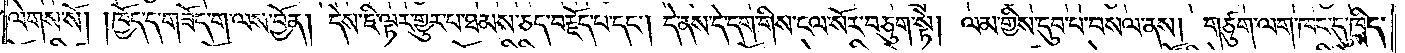ལེགས་སོ། །ཁྱོད་ད་གཟོད་ག་ལས་བྱོན། དེས་ཇི་ལྟར་གྱུར་པ་ཐམས་ཅད་བརྗོད་པ་དང༌། དེ་ནས་དེ་དག་གིས་ངལ་སོར་བཅུག་སྟེ། ལམ་གྱིས་དུབ་པ་བསལ་ནས། གཙུག་ལག་ཁང་དུ་ཁྲིད་
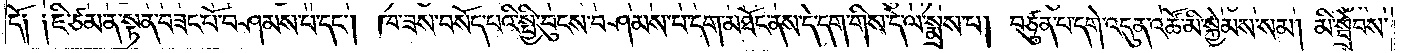དོ༑ ༑ཇི་ཙམ་ན་སྟན་བཟང་པོ་བཤམས་པ་དང༌། ཁ་ཟས་བསོད་པའི་སྤྱི་བུངས་བཤམས་པ་དག་མཐོང་ནས་དེ་དག་གིས་དེ་ལ་སྨྲས་པ། བཙུན་པ་དགེ་འདུན་འཚོ་མི་སྐྱེམས་སམ། མི་སྦྲེབས་
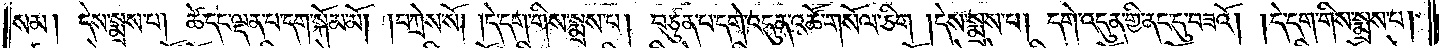སམ། དེས་སྨྲས་པ། ཚེ་དང་ལྡན་པ་དག་སྐོམ་མོ། །བཀྲེས་སོ། །དེ་དག་གིས་སྨྲས་པ། བཙུན་པ་དགེ་འདུན་འཚོ་གསོལ་ཅིག །དེས་སྨྲས་པ། དགེ་འདུན་གྱི་ནང་དུ་བཟའོ། །དེ་དག་གིས་སྨྲས་པ།
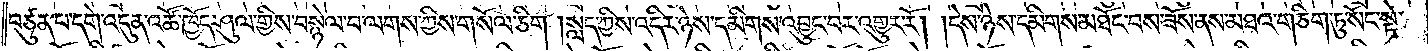བཙུན་པ་དགེ་འདུན་འཚོ་ཁྱོད་ཤུལ་གྱིས་བསྙེལ་བ་ལགས་ཀྱིས་གསོལ་ཅིག །སླད་ཀྱིས་འདིར་ཉེས་དམིགས་འབྱུང་བར་འགྱུར་རོ། །དེས་ཉེས་དམིགས་མཐོང་བས་ཟོས་ནས་མཐའ་གཅིག་ཏུ་སོང་སྟེ་
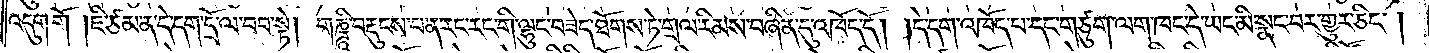འདུག་གོ །ཇི་ཙམ་ན་དེ་དག་དྲོ་ལ་བབ་སྟེ། གཎྜཱི་བརྡུངས་པ་ན་རང་རང་གི་ལྷུང་བཟེད་ཐོགས་ཏེ་གྲལ་རིམས་བཞིན་དུ་འཁོད་དོ། །དེ་དག་འཁོད་པ་དང་གཙུག་ལག་ཁང་དེ་ཡང་མི་སྣང་བར་གྱུར་ཅིང༌།
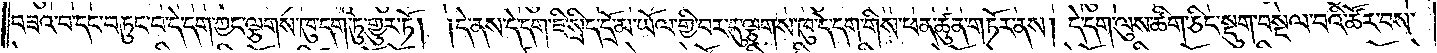བཟའ་བ་དང་བཏུང་བ་དེ་དག་ཀྱང་ལྕགས་ཁུ་དག་ཏུ་གྱུར་ཏོ། །དེ་ནས་དེ་དག་ཇི་སྲིད་དྲོ་མ་ཡོལ་གྱི་བར་དུ་ལྕགས་ཁུ་དེ་དག་གིས་ཕན་ཚུན་གཏོར་ནས། དེ་དག་ལུས་ཚིག་ཅིང་སྡུག་བསྔལ་བའི་ཚོར་བས་
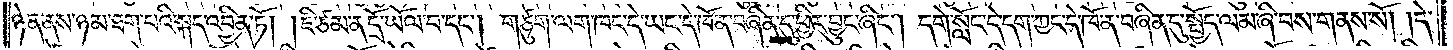ཉེན་ནས་ཉམ་ཐག་པའི་སྐད་འབྱིན་ཏོ། །ཇི་ཙམ་ན་དྲོ་ཡོལ་བ་དང༌། གཙུག་ལག་ཁང་དེ་ཡང་དེ་ཁོ་ན་བཞིན་དུ་ཕྱིར་བྱུང་ཞིང༌། དགེ་སློང་དེ་དག་ཀྱང་དེ་ཁོ་ན་བཞིན་དུ་སྤྱོད་ལམ་ཞི་བས་གནས་སོ། །དེ་
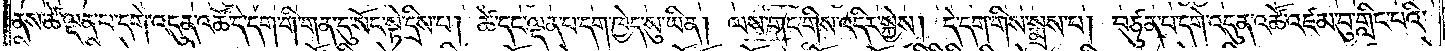ནས་ཚེ་ལྡན་པ་དགེ་འདུན་འཚོ་དེ་དག་གི་གན་དུ་སོང་སྟེ་དྲིས་པ། ཚེ་དང་ལྡན་པ་དག་ཁྱེད་སུ་ཡིན། ལས་གང་གིས་འདིར་སྐྱེས། དེ་དག་གིས་སྨྲས་པ། བཙུན་པ་དགེ་འདུན་འཚོ་འཛམ་བུ་གླིང་པའི་
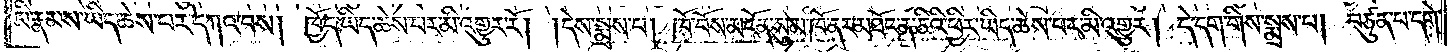མི་རྣམས་ཡིད་ཆེས་པར་དཀའ་བས། ཁྱོད་ཡིད་ཆེས་པར་མི་འགྱུར་རོ། །དེས་སྨྲས་པ། ཁོ་བོས་མངོན་སུམ་ཁོ་ནར་མཐོང་ན་ཅིའི་ཕྱིར་ཡིད་ཆེས་པར་མི་འགྱུར། དེ་དག་གིས་སྨྲས་པ། བཙུན་པ་དགེ་
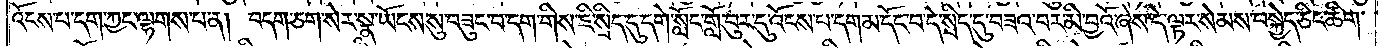འོངས་པ་དག་ཀྱང་ལྷགས་པ་ན། བདག་ཅག་སེར་སྣ་ཡོངས་སུ་བཟུང་བ་དག་གིས་ཇི་སྲིད་དུ་དགེ་སློང་གློ་བུར་དུ་འོངས་པ་དག་མདོང་བ་དེ་སྲིད་དུ་བཟའ་བར་མི་བྱའོ་ཞེས་དེ་ལྟར་སེམས་བསྐྱེད་ཅིང་ཚིག་
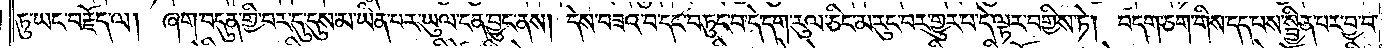ཏུ་ཡང་བརྗོད་ལ། ཞག་བདུན་གྱི་བར་དུ་དུས་མ་ཡིན་པར་ཡུལ་ངན་བྱུང་ནས། དེས་བཟའ་བ་དང་བཏུང་བ་དེ་དག་རུལ་ཅིང་མ་རུང་བར་གྱུར་པ་དེ་ལྟར་བགྱིས་ཏེ། བདག་ཅག་གིས་དད་པས་སྦྱིན་པར་བྱ་བ་
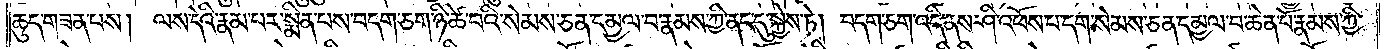ཆུད་གཟན་པས། ལས་དེའི་རྣམ་པར་སྨིན་པས་བདག་ཅག་ཉི་ཚེ་བའི་སེམས་ཅན་དམྱལ་བ་རྣམས་ཀྱི་ནང་དུ་སྐྱེས་ཏེ། བདག་ཅག་འདི་ནས་ཤི་འཕོས་པ་དག་སེམས་ཅན་དམྱལ་བ་ཆེན་པོ་རྣམས་ཀྱི་
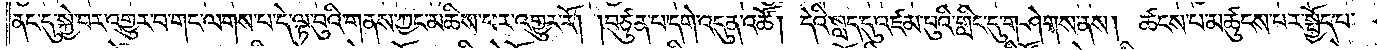ནང་དུ་སྐྱེ་བར་འགྱུར་བ་གང་ལགས་པ་དེ་ལྟ་བུའི་གནས་ཀྱང་མཆིས་པར་འགྱུར་རོ། །བཙུན་པ་དགེ་འདུན་འཚོ། དེའི་སླད་དུ་འཛམ་བུའི་གླིང་དུ་གཤེགས་ནས། ཚངས་པ་མཚུངས་པར་སྤྱོད་པ་
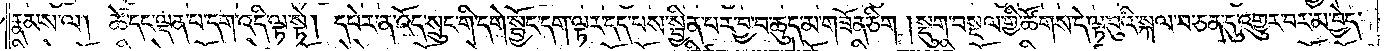རྣམས་ལ། ཚེ་དང་ལྡན་པ་དག་འདི་ལྟ་སྟེ། དཔེར་ན་འོད་སྲུང་གི་དགེ་སྦྱོང་དག་ལྟར་དད་པས་སྦྱིན་པར་བྱ་བ་ཆུད་མ་གཟོན་ཅིག །སྡུག་བསྔལ་གྱི་ཚོགས་དེ་ལྟ་བུའི་སྐལ་བ་ཅན་དུ་འགྱུར་བར་མ་བྱེད་
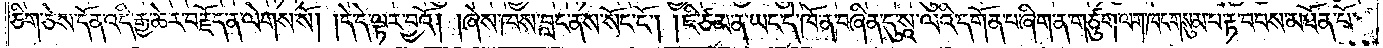ཅིག་ཅེས་དོན་འདི་རྒྱ་ཆེར་བརྗོད་ན་ལེགས་སོ། །དེ་དེ་ལྟར་བྱའོ། །ཞེས་ཁས་བླང་ནས་སོང་ངོ༌། །ཇི་ཙམ་ན་ཡང་དེ་ཁོ་ན་བཞིན་དུ་སཱ་ལའི་དགོན་པ་ཞིག་ན་གཙུག་ལག་ཁང་གསུམ་པ་རྟ་བབས་མཐོན་པོ་
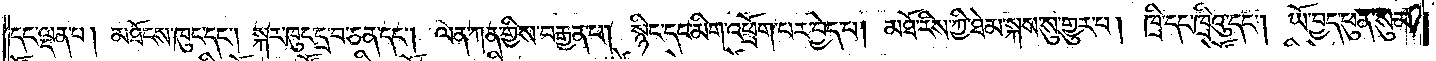དང་ལྡན་པ། མཐོངས་ཁུང་དང༌། སྐར་ཁུང་དྲ་བ་ཅན་དང༌། ལན་ཀན་གྱིས་བརྒྱན་པ། སྙིང་དང་མིག་འཕྲོག་པར་བྱེད་པ། མཐོ་རིས་ཀྱི་ཐེམ་སྐས་སུ་གྱུར་པ། ཁྲི་དང་ཁྲིའུ་དང༌། ཡོ་བྱད་ཕུན་སུམ་
